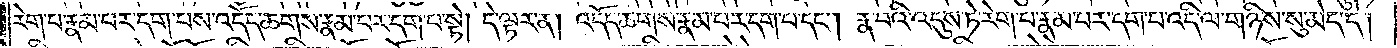རེག་པ་རྣམ་པར་དག་པས་འདོད་ཆགས་རྣམ་པར་དག་པ་སྟེ། དེ་ལྟར་ན། འདོད་ཆགས་རྣམ་པར་དག་པ་དང༌། རྣ་བའི་འདུས་ཏེ་རེག་པ་རྣམ་པར་དག་པ་འདི་ལ་གཉིས་སུ་མེད་དེ།
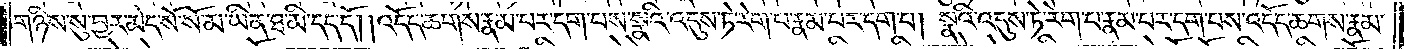གཉིས་སུ་བྱར་མེད་སོ་སོ་མ་ཡིན་ཐ་མི་དད་དོ། །འདོད་ཆགས་རྣམ་པར་དག་པས་སྣའི་འདུས་ཏེ་རེག་པ་རྣམ་པར་དག་པ། སྣའི་འདུས་ཏེ་རེག་པ་རྣམ་པར་དག་པས་འདོད་ཆགས་རྣམ་
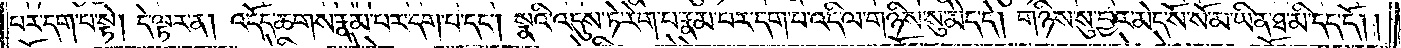པར་དག་པ་སྟེ། དེ་ལྟར་ན། འདོད་ཆགས་རྣམ་པར་དག་པ་དང༌། སྣའི་འདུས་ཏེ་རེག་པ་རྣམ་པར་དག་པ་འདི་ལ་གཉིས་སུ་མེད་དེ། གཉིས་སུ་བྱར་མེད་སོ་སོ་མ་ཡིན་ཐ་མི་དད་དོ། །
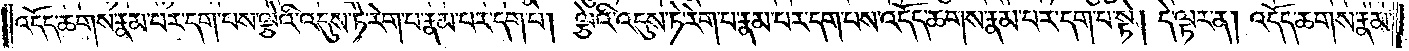འདོད་ཆགས་རྣམ་པར་དག་པས་ལྕེའི་འདུས་ཏེ་རེག་པ་རྣམ་པར་དག་པ། ལྕེའི་འདུས་ཏེ་རེག་པ་རྣམ་པར་དག་པས་འདོད་ཆགས་རྣམ་པར་དག་པ་སྟེ། དེ་ལྟར་ན། འདོད་ཆགས་རྣམ་
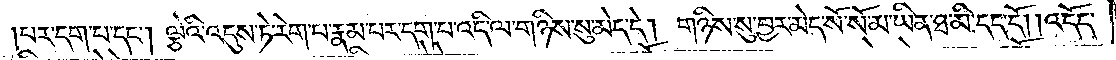པར་དག་པ་དང༌། ལྕེའི་འདུས་ཏེ་རེག་པ་རྣམ་པར་དག་པ་འདི་ལ་གཉིས་སུ་མེད་དེ། གཉིས་སུ་བྱར་མེད་སོ་སོ་མ་ཡིན་ཐ་མི་དད་དོ། །འདོད་
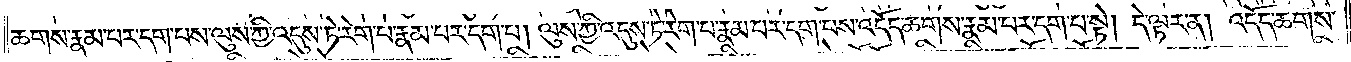ཆགས་རྣམ་པར་དག་པས་ལུས་ཀྱི་འདུས་ཏེ་རེག་པ་རྣམ་པར་དག་པ། ལུས་ཀྱི་འདུས་ཏེ་རེག་པ་རྣམ་པར་དག་པས་འདོད་ཆགས་རྣམ་པར་དག་པ་སྟེ། དེ་ལྟར་ན། འདོད་ཆགས་
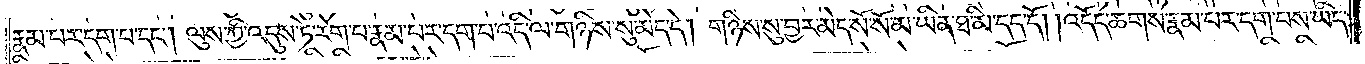རྣམ་པར་དག་པ་དང༌། ལུས་ཀྱི་འདུས་ཏེ་རེག་པ་རྣམ་པར་དག་པ་འདི་ལ་གཉིས་སུ་མེད་དེ། གཉིས་སུ་བྱར་མེད་སོ་སོ་མ་ཡིན་ཐ་མི་དད་དོ། །འདོད་ཆགས་རྣམ་པར་དག་པས་ཡིད་
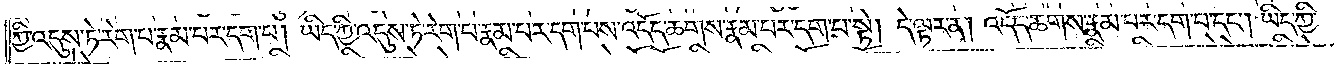ཀྱི་འདུས་ཏེ་རེག་པ་རྣམ་པར་དག་པ། ཡིད་ཀྱི་འདུས་ཏེ་རེག་པ་རྣམ་པར་དག་པས་འདོད་ཆགས་རྣམ་པར་དག་པ་སྟེ། དེ་ལྟར་ན། འདོད་ཆགས་རྣམ་པར་དག་པ་དང༌། ཡིད་ཀྱི་
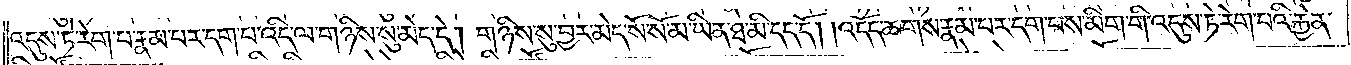འདུས་ཏེ་རེག་པ་རྣམ་པར་དག་པ་འདི་ལ་གཉིས་སུ་མེད་དེ། གཉིས་སུ་བྱར་མེད་སོ་སོ་མ་ཡིན་ཐ་མི་དད་དོ། །འདོད་ཆགས་རྣམ་པར་དག་པས་མིག་གི་འདུས་ཏེ་རེག་པའི་རྐྱེན་
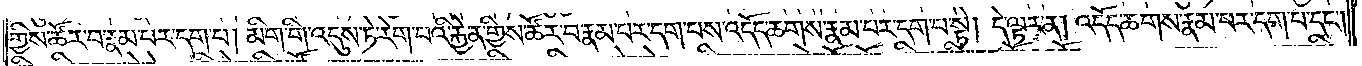གྱིས་ཚོར་བ་རྣམ་པར་དག་པ། མིག་གི་འདུས་ཏེ་རེག་པའི་རྐྱེན་གྱིས་ཚོར་བ་རྣམ་པར་དག་པས་འདོད་ཆགས་རྣམ་པར་དག་པ་སྟེ། དེ་ལྟར་ན། འདོད་ཆགས་རྣམ་པར་དག་པ་དང༌།
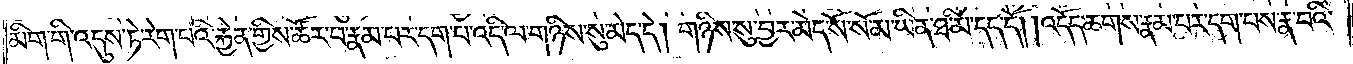མིག་གི་འདུས་ཏེ་རེག་པའི་རྐྱེན་གྱིས་ཚོར་བ་རྣམ་པར་དག་པ་འདི་ལ་གཉིས་སུ་མེད་དེ། གཉིས་སུ་བྱར་མེད་སོ་སོ་མ་ཡིན་ཐ་མི་དད་དོ། །འདོད་ཆགས་རྣམ་པར་དག་པས་རྣ་བའི་
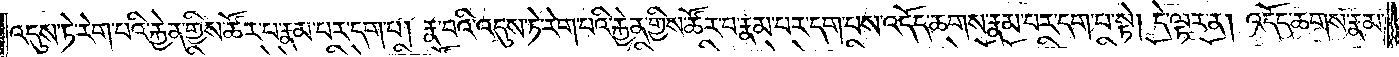འདུས་ཏེ་རེག་པའི་རྐྱེན་གྱིས་ཚོར་བ་རྣམ་པར་དག་པ། རྣ་བའི་འདུས་ཏེ་རེག་པའི་རྐྱེན་གྱིས་ཚོར་བ་རྣམ་པར་དག་པས་འདོད་ཆགས་རྣམ་པར་དག་པ་སྟེ། དེ་ལྟར་ན། འདོད་ཆགས་རྣམ་
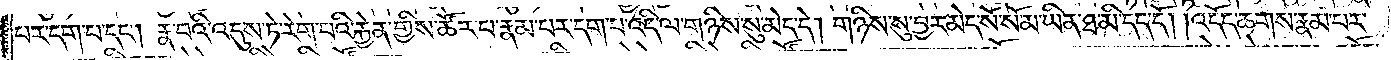པར་དག་པ་དང༌། རྣ་བའི་འདུས་ཏེ་རེག་པའི་རྐྱེན་གྱིས་ཚོར་བ་རྣམ་པར་དག་པ་འདི་ལ་གཉིས་སུ་མེད་དེ། གཉིས་སུ་བྱར་མེད་སོ་སོ་མ་ཡིན་ཐ་མི་དད་དོ། །འདོད་ཆགས་རྣམ་པར་
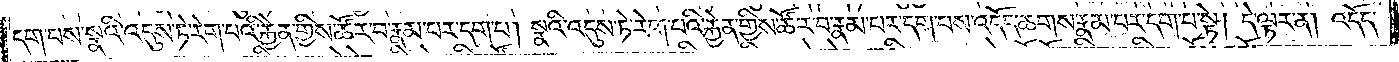དག་པས་སྣའི་འདུས་ཏེ་རེག་པའི་རྐྱེན་གྱིས་ཚོར་བ་རྣམ་པར་དག་པ། སྣའི་འདུས་ཏེ་རེག་པའི་རྐྱེན་གྱིས་ཚོར་བ་རྣམ་པར་དག་པས་འདོད་ཆགས་རྣམ་པར་དག་པ་སྟེ། དེ་ལྟར་ན། འདོད་
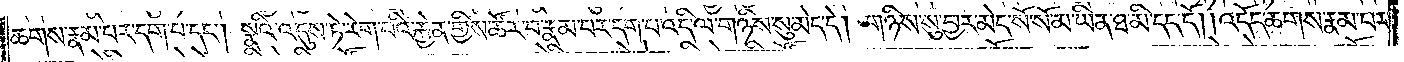ཆགས་རྣམ་པར་དག་པ་དང༌། སྣའི་འདུས་ཏེ་རེག་པའི་རྐྱེན་གྱིས་ཚོར་བ་རྣམ་པར་དག་པ་འདི་ལ་གཉིས་སུ་མེད་དེ། གཉིས་སུ་བྱར་མེད་སོ་སོ་མ་ཡིན་ཐ་མི་དད་དོ། །འདོད་ཆགས་རྣམ་པར་
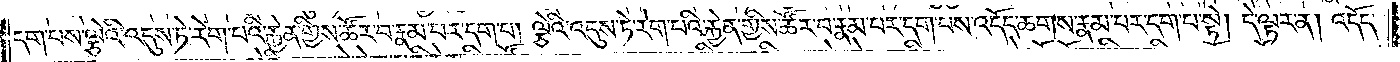དག་པས་ལྕེའི་འདུས་ཏེ་རེག་པའི་རྐྱེན་གྱིས་ཚོར་བ་རྣམ་པར་དག་པ། ལྕེའི་འདུས་ཏེ་རེག་པའི་རྐྱེན་གྱིས་ཚོར་བ་རྣམ་པར་དག་པས་འདོད་ཆགས་རྣམ་པར་དག་པ་སྟེ། དེ་ལྟར་ན། འདོད་
